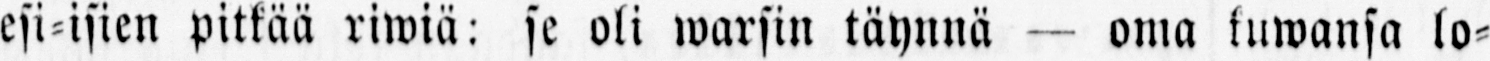esi-isien pitkää riwiä: se oli warsin täynnä — oma kuwansa lo-
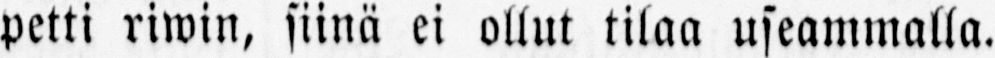petti riwin, siinä ei ollut tilaa useammalla.
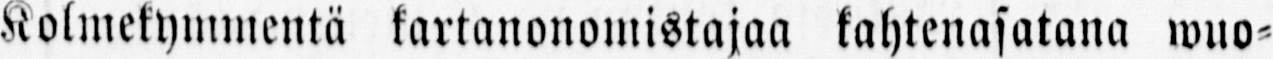— Kolmekymmentä kartanonomistajaa kahtenasatana wuo-
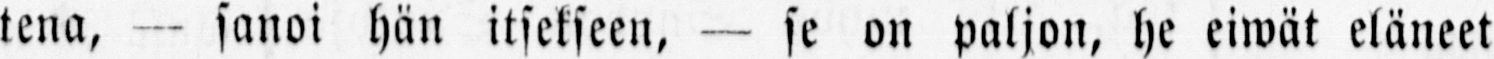tena, — sanoi hän itsekseen, — se on paljon, he eiwät eläneet
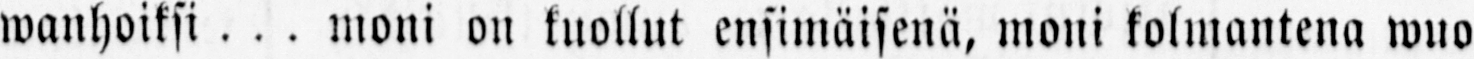wanhoiksi . . . moni on kuollut ensimäisenä, moni kolmantena wuo-
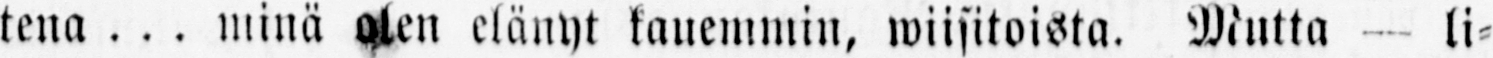tena . . . minä olen elänyt kauemmin, wiisitoista. Mutta — li-
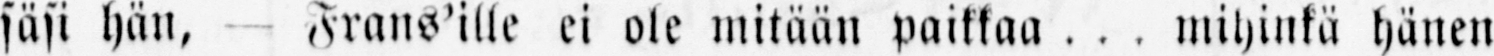säsi hän, — Frans'ille ei ole mitään paikkaa . . . mihinkä hänen
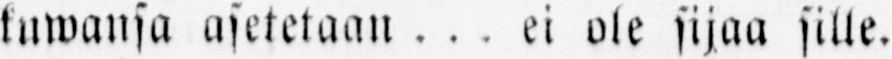kuwansa asetetaan . . . ei ole sijaa sille.
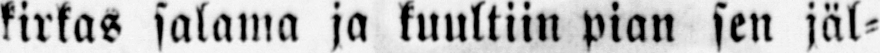kirkas salama ja kuultiin pian sen jäl-
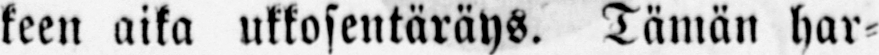keen aika ukkosentäräys. Tämän har-
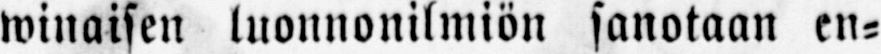winaisen luonnonilmiön sanotaan en-
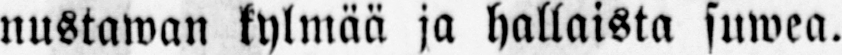nustawan kylmää ja hallaista suwea.
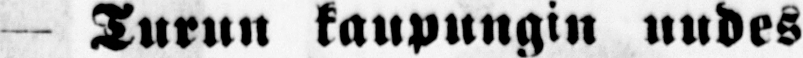— Turun kaupungin uudes-
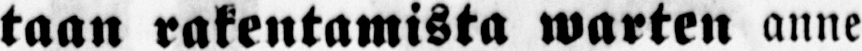taan rakentamista warten anne-
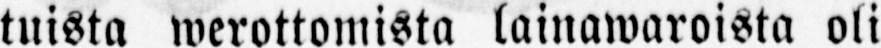tuista werottomista lainawaroista oli
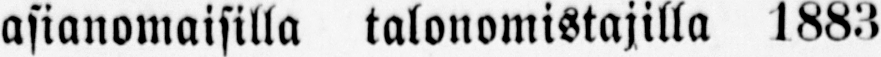asianomaisilla talonomistajilla 1883
